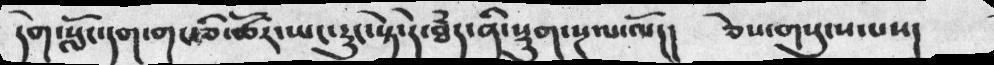དགེ་སློང་དག་གང་ཅི་ཚོར་ཡང་རུང་སྟེ་དེ་ཐཾད་ནི་སྡུག་སྔལ་ལོ།།  ཅེས་གསུངས་པས།
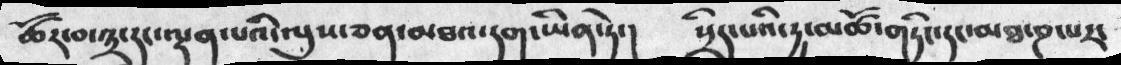ཚོར་བ་༣་དང་ལྡན་པའི་ལུས་ཅན་མཐའ་དག་ཡིན་ཏེ་།  སྲིད་པའི་དྱ་མཚོ་གཏིང་དང་མཐ་ཎ་པར་
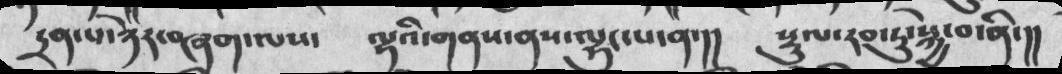དྲན་པ་ཉེར་བཞག་ལས་  ལྷའི་གནས་ནས་ལྷུང་པ་ན་།།  སྡུལ་རབ་ཏུ་སྐྱེ་བ་ནི་།།
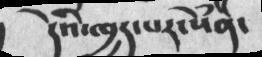དེའི་ཁྱད་པར་སེཾན་
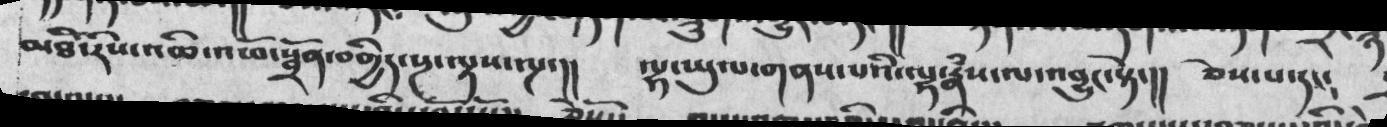མཐོ་རིས་འཆི་འཕོ་སྦྲོན་བགྱིད་སྔ་སྟས་ལྔ་།།  ལྷ་ཡུལ་གནས་པའི་ལྷ་རྣཾས་ལ་འབྱུང་སྟེ་།།  ཅེས་པ་དང༴
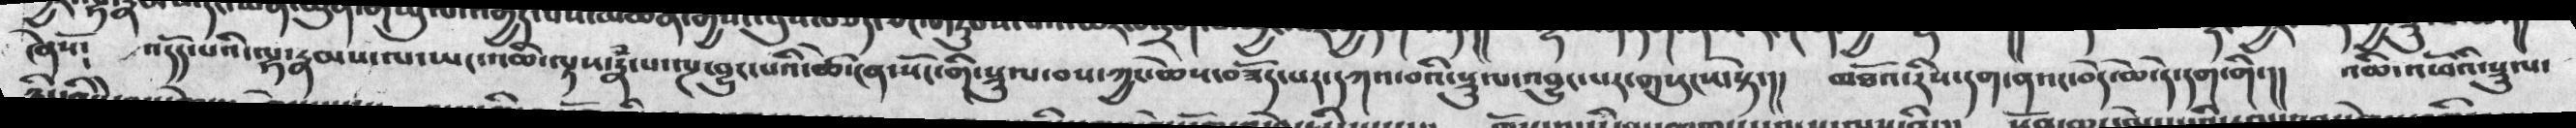ཞེསོ༴  འདོད་པའི་ལྷ་རྣམས་ལ་ཡང་འཆི་ལྟས་རྣཾ་པ་ལྔ་བྱུང་པའི་ཚེ་ངན་སོང་གི་སྡུལ་བས་ཀྱང་ཆེས་བཟོད་པར་དཀའ་བའི་སྡུལ་འབྱུང་པར་གསུངས་སྟེ་།།  མཐོའ་རིས་དག་ནའང་བདེ་ཆེ་དེ་དག་གི་།།  འཆི་འཕོའི་སྡུལ་
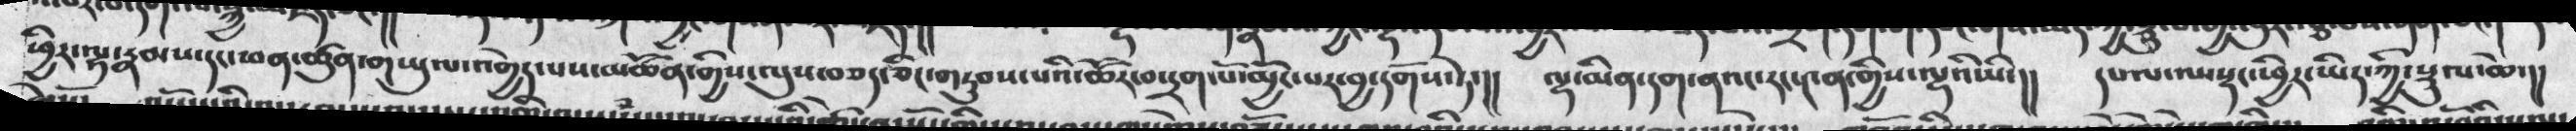ཕྱིར་ལྷ་རྣམས་དང་ཕན་ཚུན་གཡུལ་འགྱེད་པས་མཚོན་གྱིས་ལུས་བཅད་ཅིང་གཏུབས་པའི་ཚོར་བ་དྲག་པོ་མྱོང་པར་བྱ་དགོས་ཏེ་།།  ལྷ་མིན་དག་ནའང་རང་༤ན་གྱིས་ལྷའི་ཡི་།།  དཔལ་ལས་སྡང་ཕྱིར་ཡིད་ཀྱི་སྡུལ་ཆེ་།།
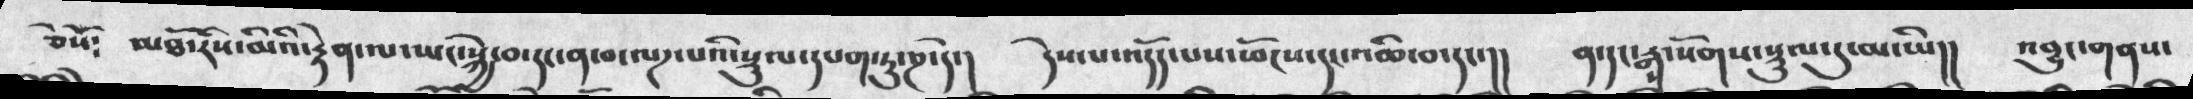ཅེསོ༴  མཐོ་རིས་མིའི་རྟེན་ལ་ཡང་སྐྱེ་བ་དང་ན་བ་ལཌ་པའི་སྡུལ་དཔག་ཏུ་ཎ་དེ་།  དེ་པ་འདོད་པས་ཕོངས་དང་འཆི་བ་དང་།།  ན་དང་རྒ་སོགས་སྡུལ་དུ་མ་ཡི།།  འབྱུང་གནས་
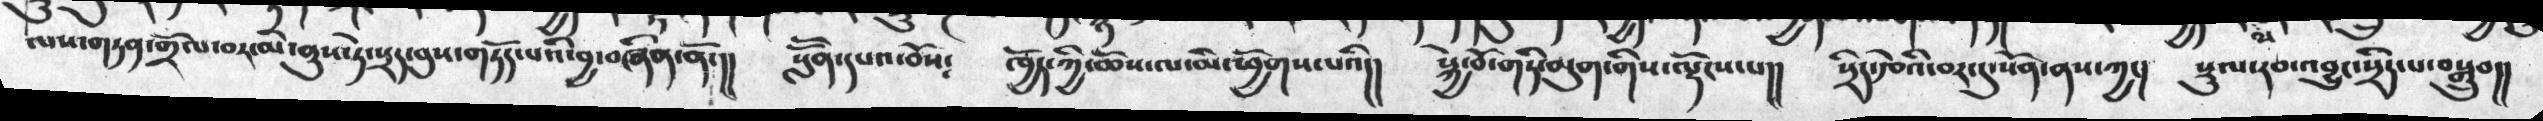ལས་གཏན་གྲོལ་བར་མི་ནུས་ཏེ་སྲད་བུས་གཏོད་པའི་བྱ་བཞིན་ནོ་།།  སློོན་དཔའ་བོས༴  ཁྱོད་ཀྱི་ཆོས་ལ་མི་ཕྱོགས་པའི།།  སྐྱེ་བོ་གཏི་མུག་གིས་ལྡོངས་པ།།  སྲིད་རྩེའི་བར་དུ་སོན་ནས་ཀྱང།  སྡུལ་རབ་འབྱུང་སྲིད་པ་བསྒྲུབ།།
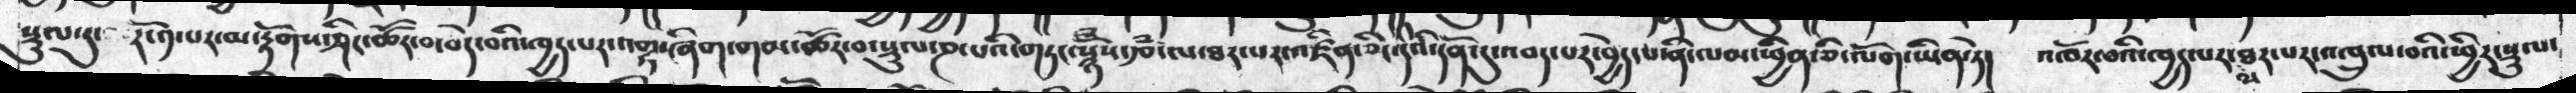སྡུལ་དུ་  རོ་༡་པར་མ་རྟོགས་ཤིང་ཚོར་བ་བདེ་བའི་ཁྱད་པར་འགྷ་ཞིག་གམ་ཚོར་བ་སྡུལ་ཎ་པའི་གཏང་སྙོཾས་རྩཾ་ལ་ཐར་པར་འཛིན་ཅིང་དེའི་དོན་དུ་འབད་པར་བྱེད་པ་ནི་ལམ་ཕྱིན་ཅི་ལོག་ཡིན་ཏེ།  འཁོར་བའི་ཁྱད་པར་མཐད་པར་འཁྲུལ་བའི་ཕྱིར་སྡུལ་
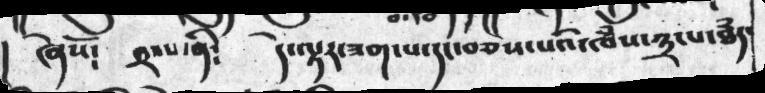།   ཞེསོ༴     ༢་པ་ནི༴    དེ་ལྟར་ཟག་པ་དང་བཅས་པའི་ཁཾས་༣་པ་ཐཾད་
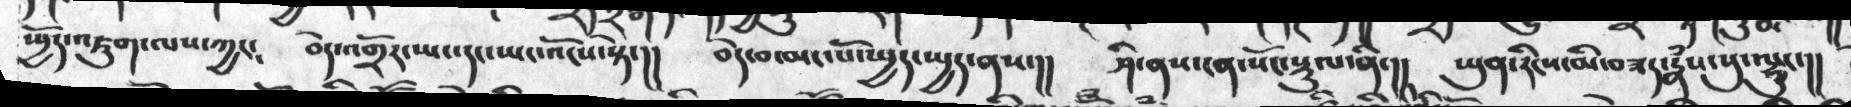ཡྱོད་འཇུག་ལས་ཀྱང༴   བདེ་འགྲོར་ཡང་དང་ཡང་འོངས་སྟེ་།།   བདེ་མང་པོ་ཡྱད་ཡྱད་ནས་།།   ཤི་ནས་ངན་སོང་སྡུལ་ནི་།།   ཡུན་རིངས་མི་བཟད་རྣཾས་སུ་ལྷུང་།།
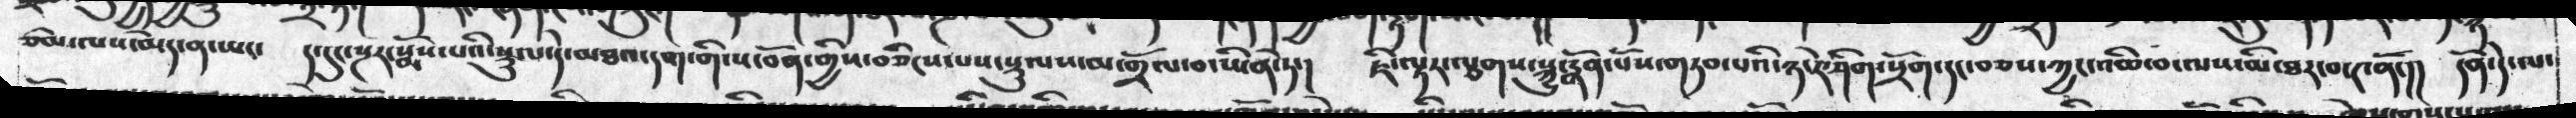ཙམ་ལས་མེད་ན་ཡང་   ད་དུང་སྔར་སྨོས་པའི་སྡུལ་དེ་མཐའ་དག་གི་ས་བོན་གྱིས་བཅིངས་པས་སྡུལས་མ་གྲོལ་བ་ཡིན་ཏེ་།  ཇི་ལྟར་ལྕགས་སྐུ་རྣོན་པོས་གཏབ་པའི་ཉ་རེ་ཤིག་སྲོག་དང་བཅས་ཀྱང་འཆི་བ་ལས་མི་ཐར་བ་༤ནོ་།།   དོན་དེ་ལ་
